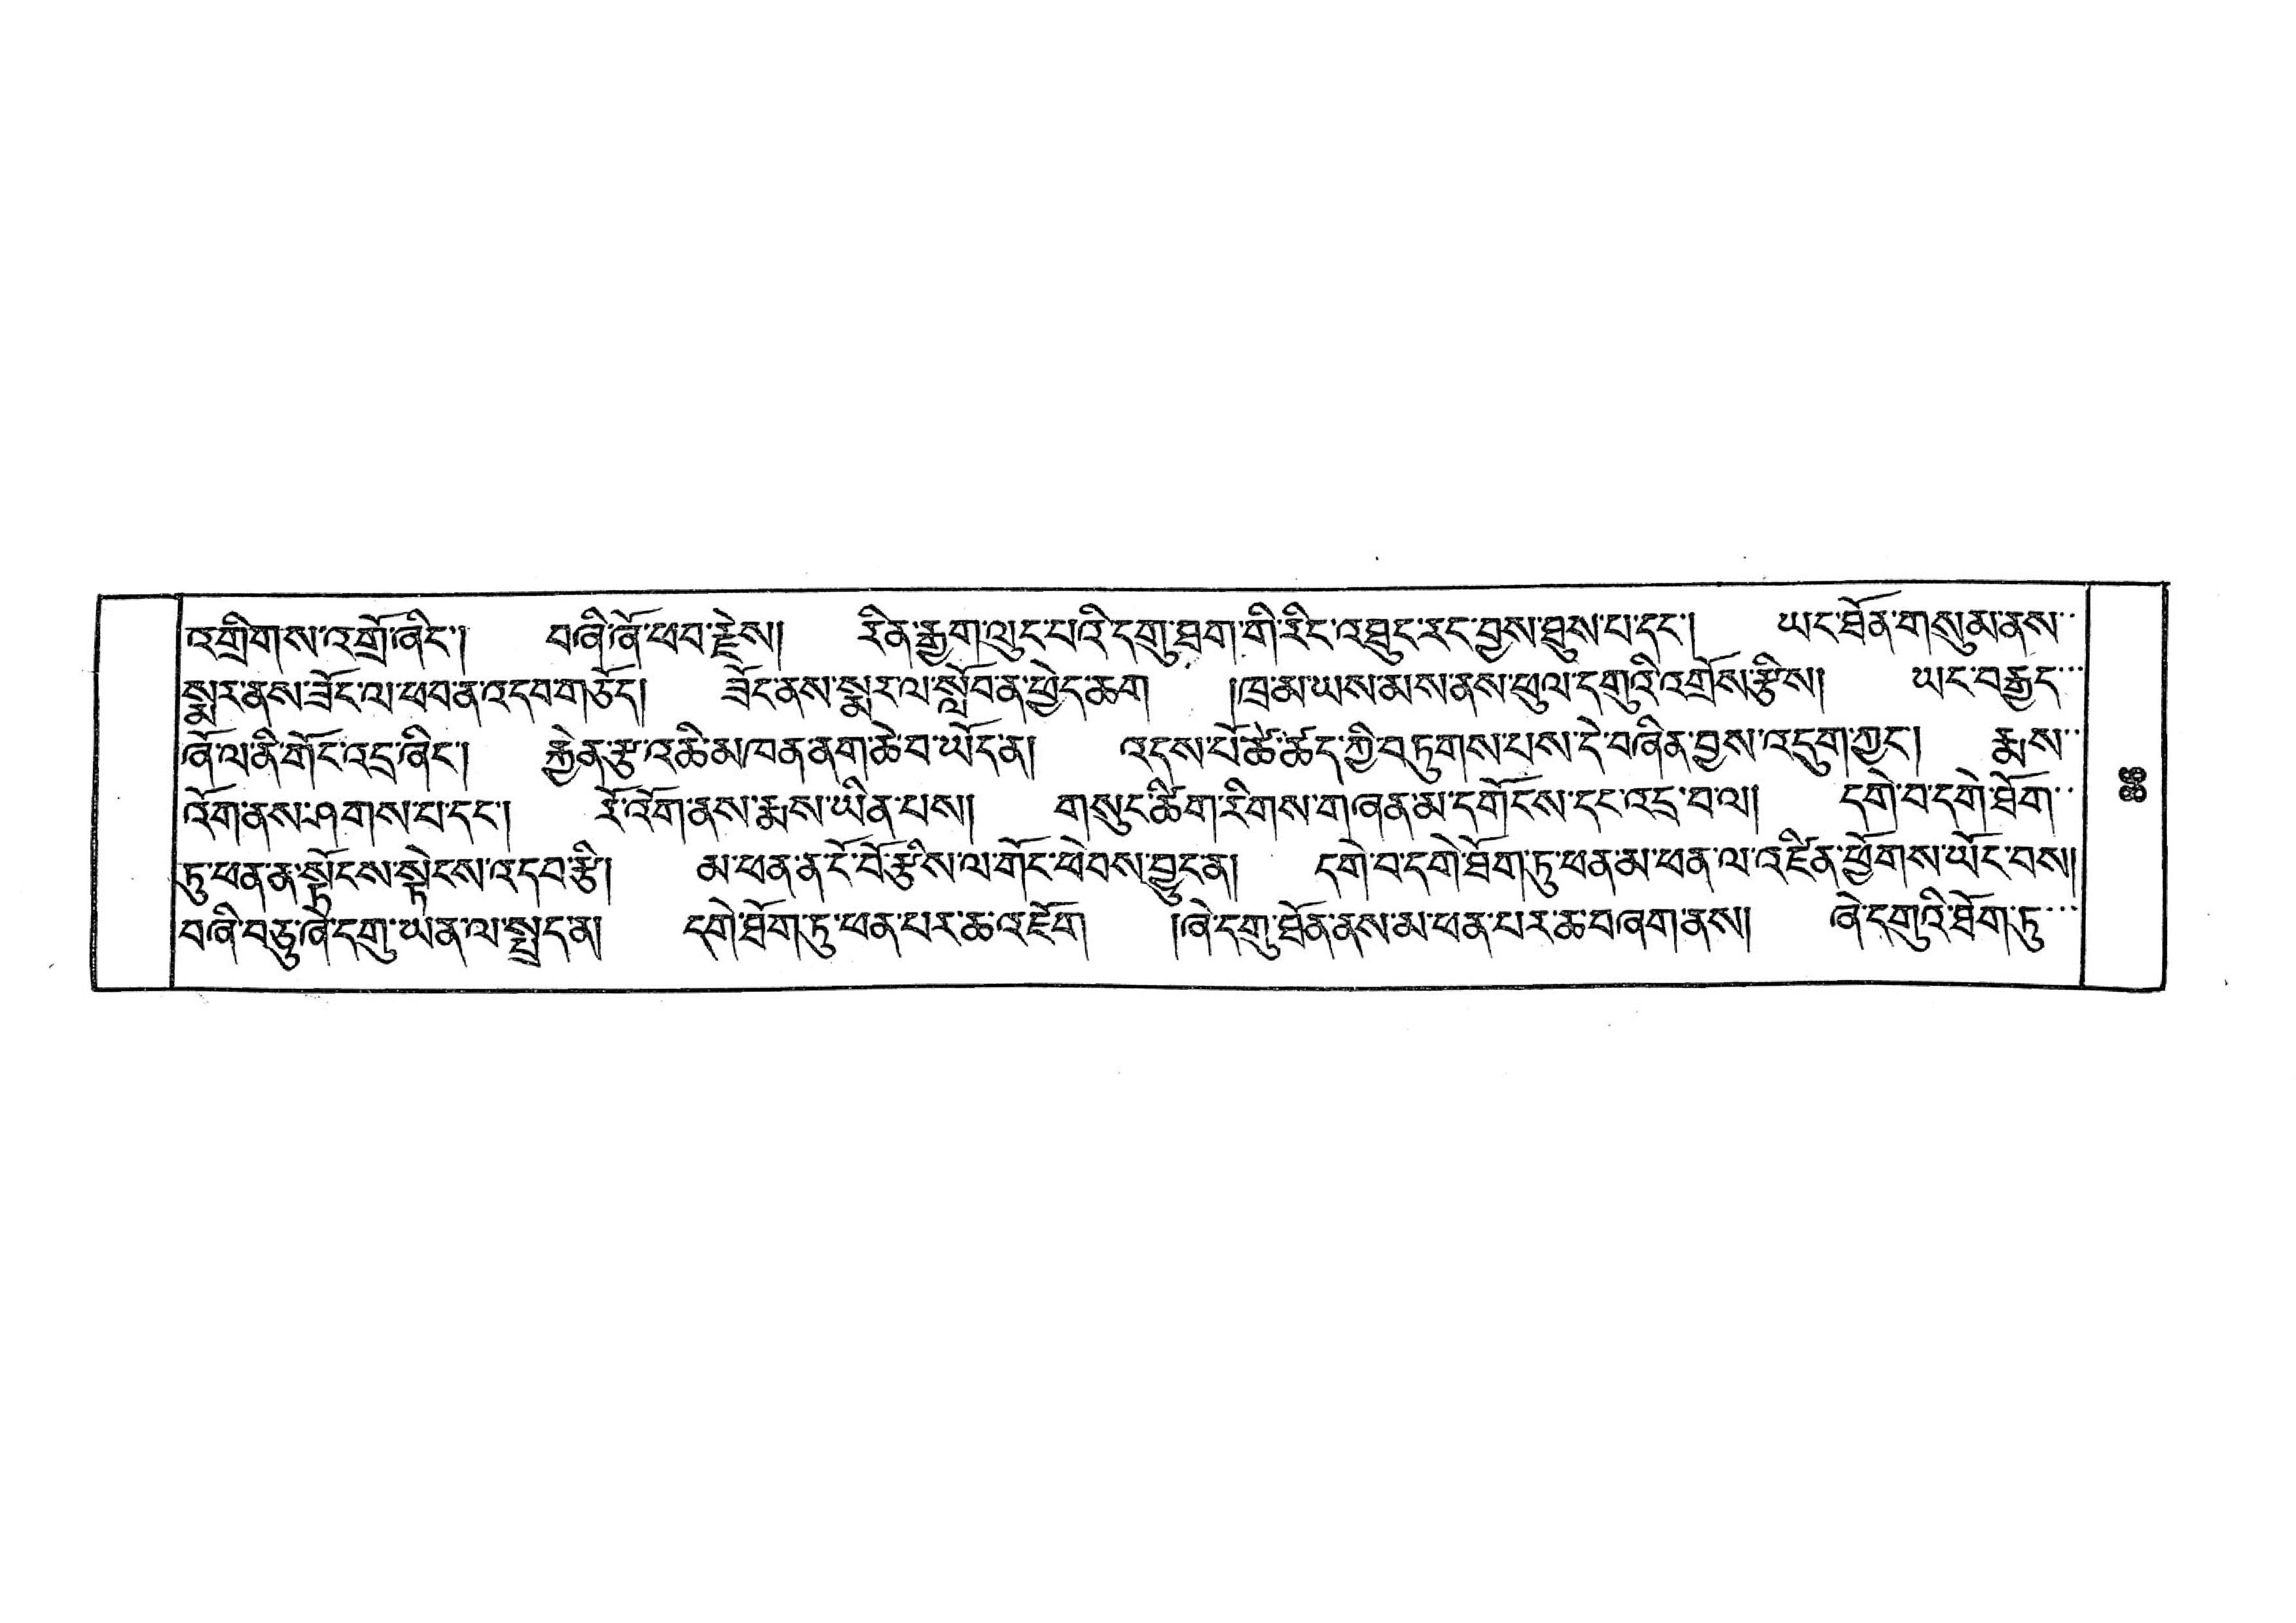འགྲིགས་འགྲོ་ཞིང་། བཞི་ཞོ་ཕབ་རྗེས། རིན་རྒྱག་ལུང་པའི་དགུ་ཐག་གི་རིང་འཐུང་རང་བྱས་ཐུས་པ་དང་། ཡང་ཐོན་གསུམ་ནས་་
སྨར་ནས་ཟོང་ལ་ཕབ་ན་འདབ་གཅོད། ཟོང་ནས་སྨར་ལ་སློབ་ན་ཕྱེད་ཆག །ཁྲ་མ་ཡས་མས་ནས་ཕུལ་དགུའི་གྲོས་རྩིས། ཡང་བརྒྱད་་་
ཞོ་ལ་ནི་གོང་འདྲ་ཞིང་། རྐྱེན་རྩ་འཆི་མཁན་ནག་ཆེ་བ་ཡོད་ན། འདས་པོ་ཚེ་ཚད་ཀྱི་བཏུགས་པས་དེ་བཞིན་བྱས་འདུག་ཀྱུང་། རྨས་་
འོག་ནས་ཤགས་པ་དང་། རོ་འོག་ནས་རྨས་ཡིན་པས། གསུང་ཚིག་རིགས་གཞན་མ་དགོངས་དང་འདྲ་བ་ལ། དགེ་བ་དགེ་ཐོག་་
ཏུ་ཕན་ན་སྟོངས་སྟེངས་འདབ་རྩི། མ་ཕན་ན་ངོ་བོ་རྩིས་ལ་གོང་ཕེབས་བྱུང་ན། དགེ་བ་དགེ་ཐོག་ཏུ་ཕན་མ་ཕན་ལ་འཛིན་ཕྱོགས་ཡོང་བས།
བཞི་བཅུ་ཞེ་དགུ་ཡན་ལ་སྤྲད་ན། དགེ་ཐོག་ཏུ་ཕན་པར་ཆ་འཇོག །ཞེ་དགུ་ཐོན་ནས་མ་ཕན་པར་ཆ་བཞག་ནས། ཞེ་དགུའི་ཐོག་ཏུ་་་
